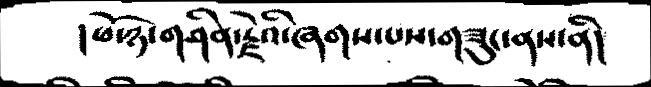། ཕོ་ཉ་གཤིན་རྗེའི་ཞགས་པས་གཟུང་ནས་ནི།
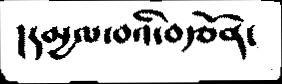།དམྱལ་བའི་བརྩོན།
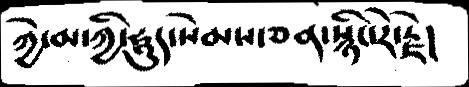ཀྱེ་མ་ཀྱི་ཧཱུད་སེམས་ཅན་སྙིང་རེ་རྗེ།
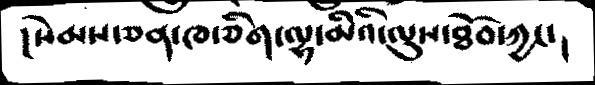།སེམས་ཅན་ཁ་ཅིག་ལྷ་མིའི་ལུས་ཐོབ་ཀྱང་།
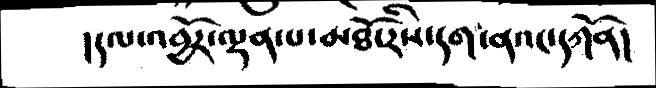།དལ་འབྱོར་ལྡན་པ་མཐོ་རིས་དག་ནའང་དཀོན།
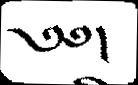༄༅།
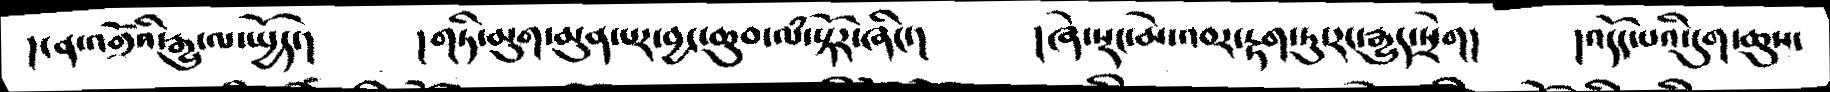།ངན་འགྲོའི་རྒྱུ་ལ་སྤྱོད་།    །གཏི་མུག་མུན་པར་བྱང་ཆུབ་ལཾ་སྟོར་ཞིང་།     །ཞེ་སྡང་མེ་འབར་རྟག་ཏུ་རང་རྒྱུད་སྲེག།   །འདོད་པའི་དུག་ཆུས་
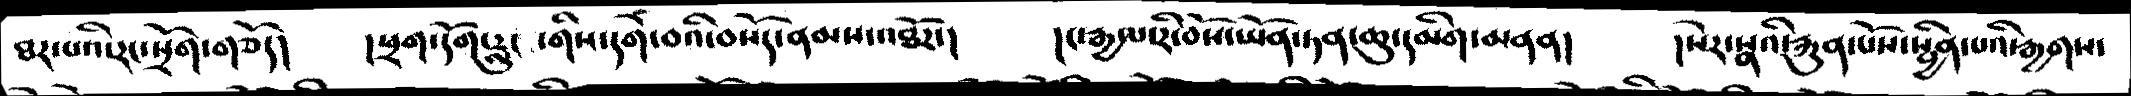ཐར་པའི་རང་སྲོག་གཅོད།   །ཕྲག་དོག་རླུང་གིས་དགེ་བའི་བསོད་ནམས་འཐོར་།    །ང་རྒྱལ་རི་བོས་ཡོན་ཏན་ཆུ་དམིག་མནན།   །སེར་སྣའི་རྐུན་པོས་སྦྱིན་པའི་རྒྱགས་
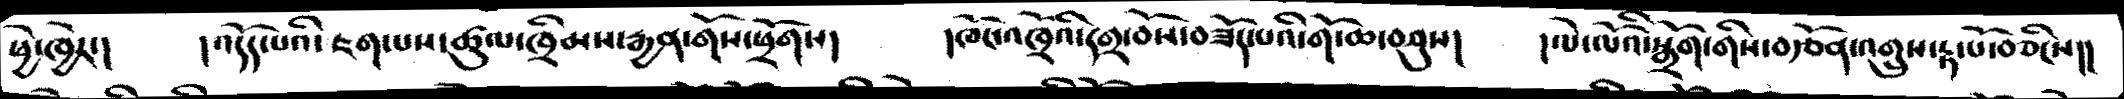ཕྱེ་ཁྱེར་།     །འདོད་པའི་ཇག་པས་ཚུལ་ཁྲིམས་རྒྱན་གོས་ཕྲོགས།    །ཁོང་འཁྲོའི་དགྲ་བོས་བཟོད་པའི་གོ་ཆ་བཤུས།   །ལེ་ལོའི་སྒྲོག་གིས་བརྩོན་འགྲུས་རྟ་པོ་བཅིངས།།
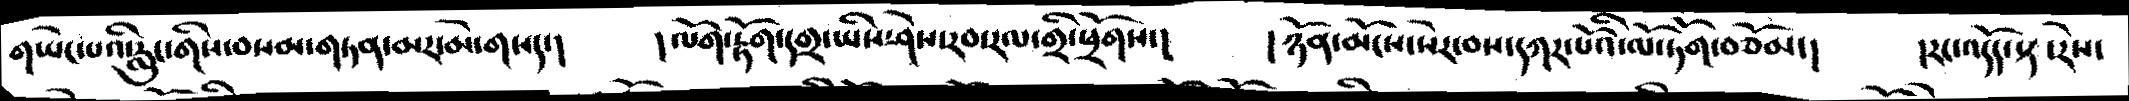གཡེང་པའི་རླུང་གིས་བསམ་གཏན་མར་མེ་གསད་།   །ལོག་རྟོག་དགྲ་ཡིས་ཤེས་རབ་རལ་གྲི་ཕྲོགས་།  །ཉོན་མོངས་སེར་བས་དཀར་པོའི་ལོ་ཏོག་བཅོམ་།   །རང་འདོད་སྟ་རེས་
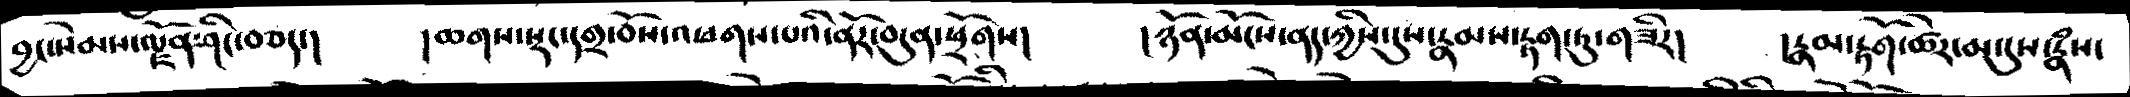བྱང་སེམས་ལྗོན་ཤིང་བཅད་།   །ཆགས་སྡང་དགྲ་བོས་འཕགས་པའི་ནོར་བདུན་ཕྲོགས།   །ཉོན་མོངས་ནད་ཀྱིས་དུས་རྣམས་རྟག་ཏུ་གཟིར།   །རྣམ་རྟོག་ཚེར་མ་དུས་རྣཾས་
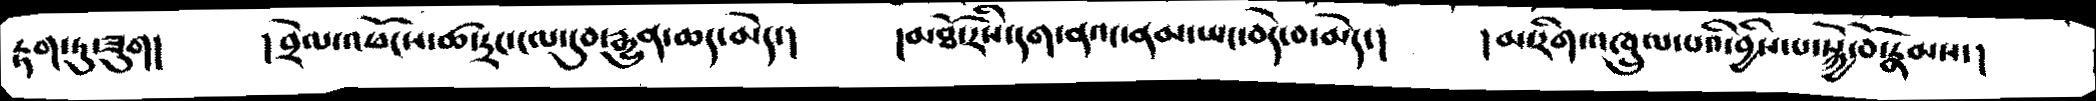རྟག་ཏུ་ཟུག།   །བྲེལ་འཕོངས་ཚ་དྲང་ངལ་དུབ་རྒྱུན་ཆད་མེད་།   །མཐོ་རིས་དག་ནའང་ནམ་ཡང་བདེ་བ་མེད་།   །མ་རིག་འཁྲུལ་པའི་བྱིས་པ་སྐྱེ་བོ་རྣམས་།
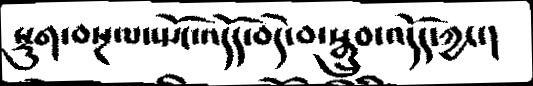སྡུག་བསྔལ་སྤང་འདོད་བདེ་བ་སྒྲུབ་འདོད་ཀྱང་།
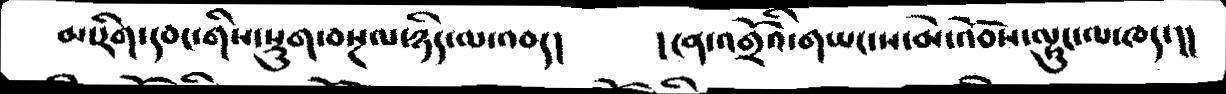མ་རིག་དབངགིས་སྡུག་བསྔལ་ཉིད་ལ་འབད།   །ངན་འགྲོའི་གཡང་ས་མེ་འོབས་ལྷུང་ལ་ཁད་།།
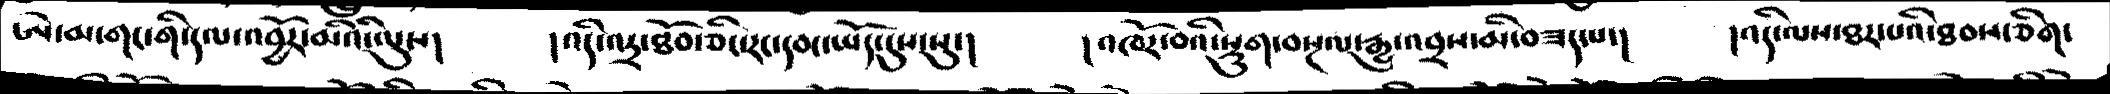ཨེ་མ་གང་གི་དལ་འབྱོར་མིའི་ལུས།   །འདི་འདྲ་ཐོབ་ཅིང་རང་དབང་ཡོད་དུས་སུ་།   །འཁོར་བའི་སྡུག་བསྔལ་རྒྱུ་འབྲས་མི་བཟད་པ་།   །འདི་ལས་ཐར་པའི་ཐབས་ཅིག་
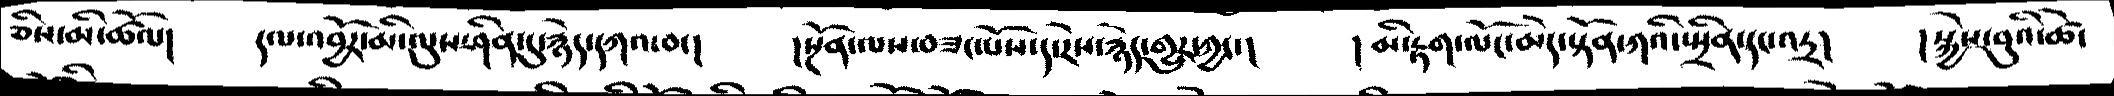ཅིས་མི་ཚོལ།   དལ་འབྱོར་མི་ལུས་ཤིན་དུ་རྙེད་དཀའ་བ་།   །སྔོན་ལས་བཟང་པོས་ད་རེས་རྙེད་གྱུར་ཀྱང་།   །མི་རྟག་ལོང་མེད་སྟོན་ཀའི་སྤྲིན་དང་འདྲ།   །སྐྱེས་བུའི་ཚེ་
